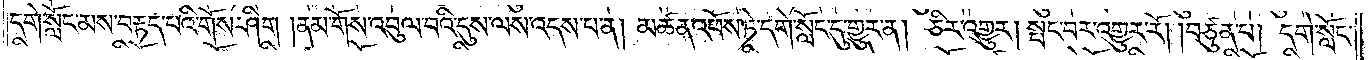དགེ་སློང་མས་བརྟད་པའི་གོས་ཤིག །ནམ་གོས་འབུལ་བའི་དུས་ལས་འདས་པ་ན། མཚན་འཕོས་ཏེ་དགེ་སློང་དུ་གྱུར་ན། ཅིར་འགྱུར། སྤང་བར་འགྱུར་རོ། །བཙུན་པ། དགེ་སློང་
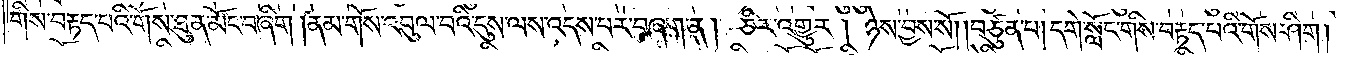གིས་བརྟད་པའི་གོས་ཐུན་མོང་བ་ཞིག །ནམ་གོས་འབུལ་བའི་དུས་ལས་འདས་པར་བཞག་ན། ཅིར་འགྱུར། ཉེས་བྱས་སོ། །བཙུན་པ། དགེ་སློང་གིས་བརྟད་པའི་གོས་ཤིག།
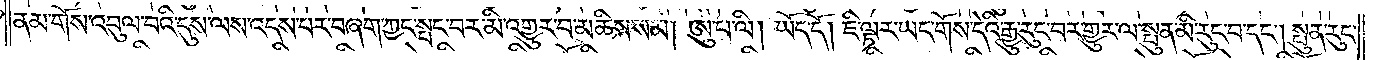ནམ་གོས་འབུལ་བའི་དུས་ལས་འདས་པར་བཞག་ཀྱང་སྤང་བར་མི་འགྱུར་བ་མཆིས་སམ། ཨུ་པ་ལི། ཡོད་དོ། ཇི་ལྟར་ཡང་གོས་དེའི་རྒྱུ་རུང་བར་གྱུར་ལ་སྤུན་མི་རུང་བ་དང༌། སྤུན་རུང་
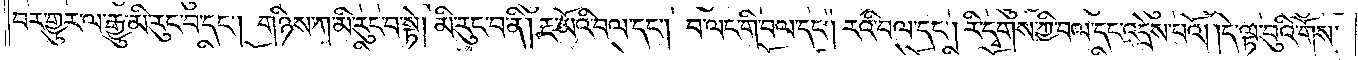བར་གྱུར་ལ་རྒྱུ་མི་རུང་བ་དང༌། གཉིས་ཀ་མི་རུང་བ་སྟེ། མི་རུང་བ་ནི། རྔ་མོའི་བལ་དང༌། བ་ལང་གི་བལ་དང༌། རའི་བལ་དང༌། རི་དྭགས་ཀྱི་བལ་དང་འདྲེས་པའོ། །དེ་ལྟ་བུའི་གོས་
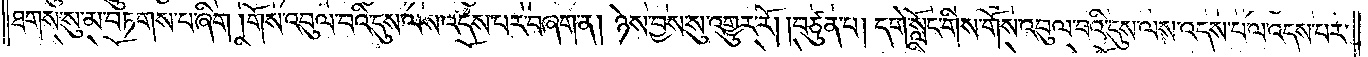ཐགས་སུ་མ་བཏགས་པ་ཞིག །གོས་འབུལ་བའི་དུས་ལས་འདས་པར་བཞག་ན། ཉེས་བྱས་སུ་འགྱུར་རོ། །བཙུན་པ། དགེ་སློང་གིས་གོས་འབུལ་བའི་དུས་ལས་འདས་པ་ལ་འདས་པར་
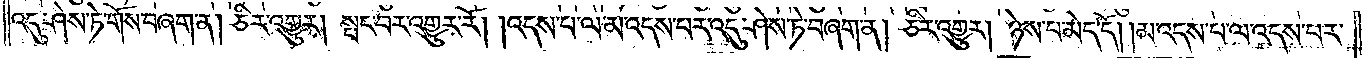འདུ་ཤེས་ཏེ་གོས་བཞག་ན། ཅིར་འགྱུར། སྤང་བར་འགྱུར་རོ། །འདས་པ་ལ་མ་འདས་པར་འདུ་ཤེས་ཏེ་བཞག་ན། ཅིར་འགྱུར། ཉེས་པ་མེད་དོ། །མ་འདས་པ་ལ་འདས་པར་
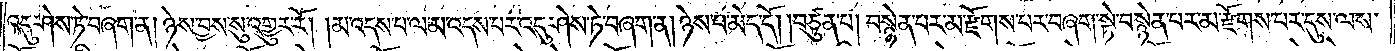འདུ་ཤེས་ཏེ་བཞག་ན། ཉེས་བྱས་སུ་འགྱུར་རོ། །མ་འདས་པ་ལ་མ་འདས་པར་འདུ་ཤེས་ཏེ་བཞག་ན། ཉེས་པ་མེད་དོ། །བཙུན་པ། བསྙེན་པར་མ་རྫོགས་པར་བཞག་སྟེ་བསྙེན་པར་མ་རྫོགས་པར་དུས་ལས་
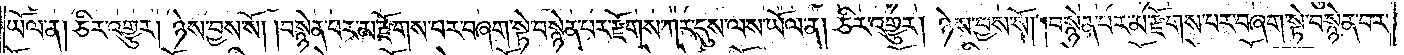ཡོལ་ན། ཅིར་འགྱུར། ཉེས་བྱས་སོ། །བསྙེན་པར་མ་རྫོགས་པར་བཞག་སྟེ་བསྙེན་པར་རྫོགས་ཀར་དུས་ལས་ཡོལ་ན། ཅིར་འགྱུར། ཉེས་བྱས་སོ། །བསྙེན་པར་མ་རྫོགས་པར་བཞག་སྟེ་བསྙེན་པར་
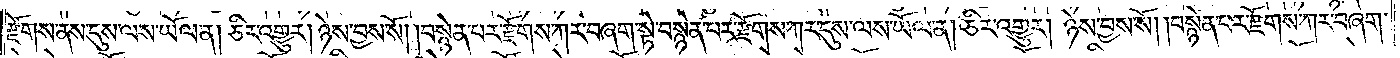རྫོགས་ནས་དུས་ལས་ཡོལ་ན། ཅིར་འགྱུར། ཉེས་བྱས་སོ། །བསྙེན་པར་རྫོགས་ཀར་བཞག་སྟེ་བསྙེན་པར་རྫོགས་ཀར་དུས་ལས་ཡོལ་ན། ཅིར་འགྱུར། ཉེས་བྱས་སོ། །བསྙེན་པར་རྫོགས་ཀར་བཞག་
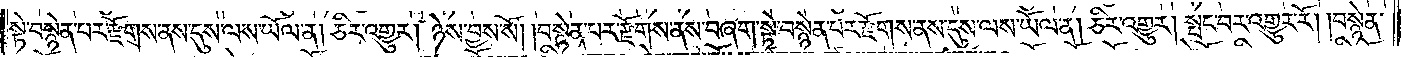སྟེ་བསྙེན་པར་རྫོགས་ནས་དུས་ལས་ཡོལ་ན། ཅིར་འགྱུར། ཉེས་བྱས་སོ། །བསྙེན་པར་རྫོགས་ནས་བཞག་སྟེ་བསྙེན་པར་རྫོགས་ནས་དུས་ལས་ཡོལ་ན། ཅིར་འགྱུར། སྤང་བར་འགྱུར་རོ། །བསྙེན་
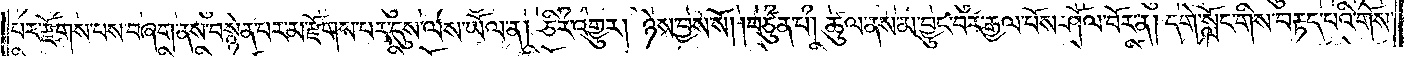པར་རྫོགས་པས་བཞག་ནས་བསྙེན་པར་མ་རྫོགས་པར་དུས་ལས་ཡོལ་ན། ཅིར་འགྱུར། ཉེས་བྱས་སོ། །བཙུན་པ། ཚུལ་ནས་མ་བྱུང་བར་རྒྱལ་པོས་ཤོལ་བོར་ན། དགེ་སློང་གིས་བརྟད་པའི་གོས་
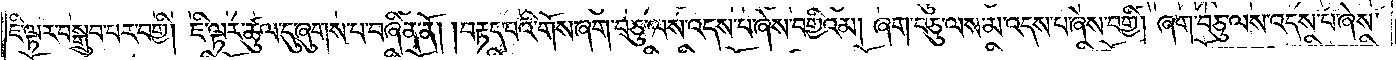ཇི་ལྟར་བསྒྲུབ་པར་བགྱི། ཇི་ལྟར་ཚུལ་དུ་ཞུགས་པ་བཞིན་ནོ། །བརྟད་པའི་གོས་ཞག་བཅུ་ལས་འདས་པ་ཞེས་བགྱིའམ། ཞག་བཅུ་ལས་མ་འདས་པ་ཞེས་བགྱི། ཞག་བཅུ་ལས་འདས་པ་ཞེས་
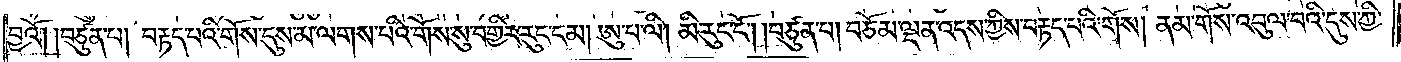བྱའོ། །བཙུན་པ། བརྟད་པའི་གོས་དུས་མ་ལགས་པའི་གོས་སུ་བགྱིར་རུང་ངམ། ཨུ་པ་ལི། མི་རུང་ངོ༌། །བཙུན་པ། བཅོམ་ལྡན་འདས་ཀྱིས་བརྟད་པའི་གོས། ནམ་གོས་འབུལ་བའི་དུས་ཀྱི་
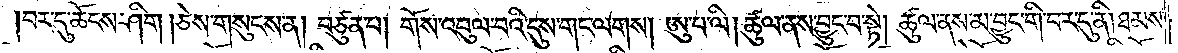བར་དུ་ཆོངས་ཤིག །ཅེས་གསུངས་ན། བཙུན་པ། གོས་འབུལ་བའི་དུས་གང་ལགས། ཨུ་པ་ལི། ཚུལ་ནས་བྱུང་བ་སྟེ། ཚུལ་ནས་མ་བྱུང་གི་བར་དུ་ནི། ཐམས་
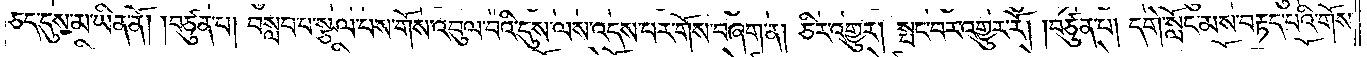ཅད་དུས་མ་ཡིན་ནོ། །བཙུན་པ། བསླབ་པ་སྩལ་པས་གོས་འབུལ་བའི་དུས་ལས་འདས་པར་གོས་བཞག་ན། ཅིར་འགྱུར། སྤང་བར་འགྱུར་རོ། །བཙུན་པ། དགེ་སློང་མས་བརྟད་པའི་གོས་
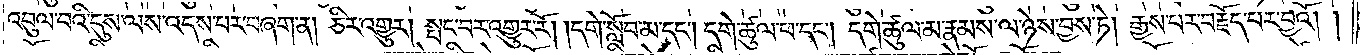འབུལ་བའི་དུས་ལས་འདས་པར་བཞག་ན། ཅིར་འགྱུར། སྤང་བར་འགྱུར་རོ། །དགེ་སློབ་མ་དང༌། དགེ་ཚུལ་ཕ་དང༌། དགེ་ཚུལ་མ་རྣམས་ལ་ཉེས་བྱས་ཏེ། རྒྱས་པར་བརྗོད་པར་བྱའོ།    །
